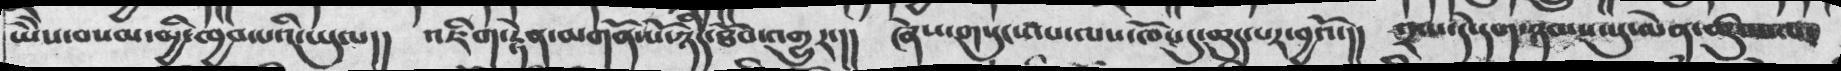ཡཻས་བསམ་མྱི་ཁྱབ་པའི་ཡུལ།། འཇིག་རྟེན་མགོན་པོ་ཉིད་ཐོབ་འགྱུར་།། ཞེས་གསུངས་པ་ལས་ཁོང་དུ་ཆུད་པར་བྱའོ་།། ༢་པ་དེ་དག་ཉམས་སུ་ལེན་ཚུལ་ལ་
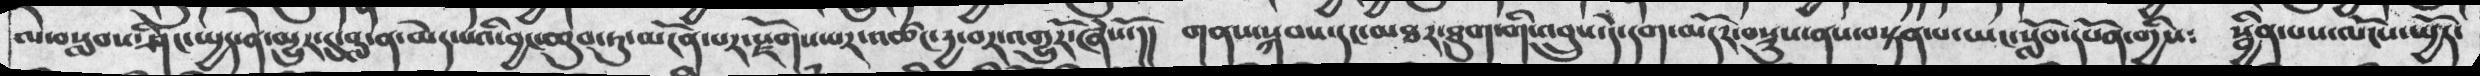ལ་བསླབས་ཤིང་སྤྱད་ན་མྱུར་དུ་བླ་ན་མེད་པའི་བྱང་ཆུབ་ཏུ་མངོན་པར་སྫོགས་པར་འཚང་དྱ་བར་འགྱུརོ་ཞེསོ་།།  གནས་སྐབས་དང་མཐར་ཐུག་གི་འབྲུས་དེ་དག་མདོར་བསྡུས་ནས་བསྟན་པ་ཡང་སློབ་དཔོན་གྱིས༴  སྦྱིན་པས་ལོངས་སྤྱོད་
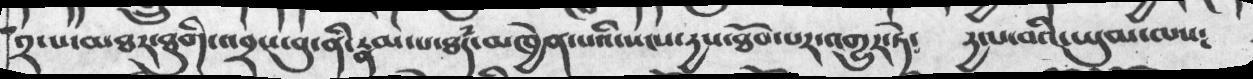༢་པ་མཐར་ཐུགི་འབྲས་བུ་ནི་རྣམ་པ་ཐཾད་མཁྱེན་པའི་སངས་དྱས་ཐོབ་པར་འགྱུར་ཏེ༴  དྱལ་བའི་ཡུམ་ལས༴
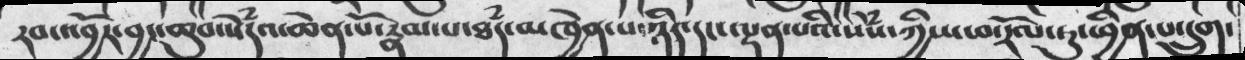རབ་འབྱོར་བྱང་ཆུབ་སེཾདའ་ཆེན་པོ་རྣམ་པ་ཐཾད་མཁྱེན་པ་ཉིད་དང་ལྡན་པའི་སེཾས་ཀྱིས་ཕ་རོལ་ཏུ་ཕྱིན་པ་དྲུག་
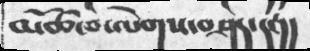མཚོ་བ་ལེགས་བཤད་དང།།
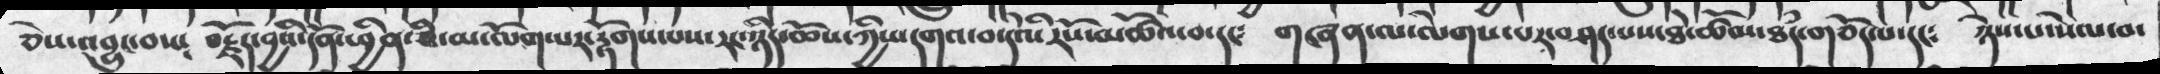ཅེས་འབྱུང་བས༴  བརྗོད་བྱའི་དོན་ཕྱིན་ཅི་མ་ལོགས་པར་རྟོགས་པས་རང་ཉིད་ཆོས་ཀྱིས་དགའ་བ་དིའི་རོས་མཚོའ་བ་དང༴  གཞན་ལ་ལེགས་པར་བཤད་པས་ཐེ་ཚོམ་ཐཾད་གཅོད་པ་དང༴    ཉེས་པ་སེལ་བ་
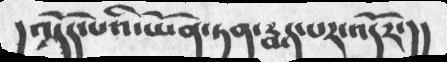།འདོད་པའི་ཡོན་ཏན་རྨད་པར་འདོར་།།
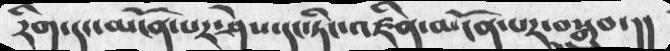རིག་དང་མངོན་པར་ཤེས་དང་ཏིང་འཛིན་མངོན་པར་བསྒྲུབ་།།
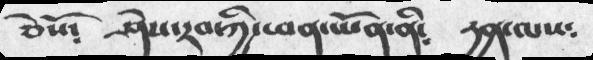ཅེསོ༴  ཤེས་རབ་ཀྱི་ཕན་ཡོན་ནི༴   དྱན་ལས༴
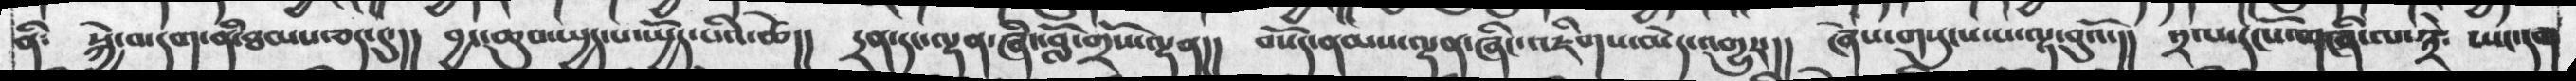ནི༴ སྐྱེ་བ་དག་ནི་ཐམས་ཅད་དུ་།། བྱང་ཆུབ་སྤྱད་པ་སྤྱོད་པའི་ཚེ།། དྲན་དང་ལྡན་ཞིང་བློ་གྲོས་ལྡན།། བསོད་ནམས་ལྡན་ཞིང་འཇིགས་མེད་འགྱུར་།། ཞེས་གསུངས་པ་ལྟ་བུའོ་།། ༢་པ་དངོས་གཞི་ལ་༣ེ༴ ཡང་དག
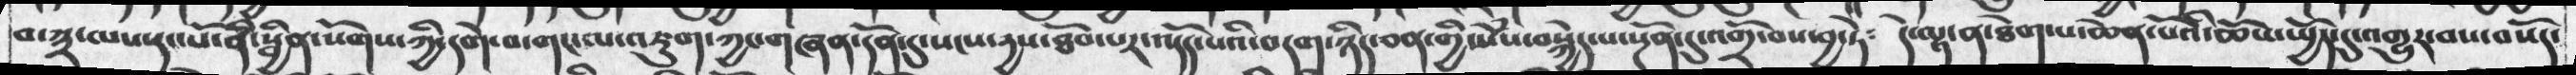བ་༣་ལས་དང་པོ་ནི་སྦྱིན་སོགས་ཀྱི་དགེ་བ་གང་ལ་འཇུག་ཀྱང་གཞན་དོན་དུ་སངས་དྱས་ཐོབ་པར་འདོད་པའི་བདག་ཉིད་ཅན་གྱི་སེཾས་བསྐྱེད་པ་སྔོན་དུ་འགྲོ་བས་བྱ་ཏེ༴ དེ་ལྟ་ན་ཐེག་པ་ཆེན་པོའི་ཆོས་སྤྱོད་དུ་འགྱུར་བས་བསོད་
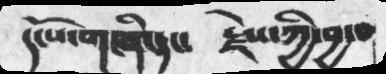དངོས་གཞི་དང༴ རྗེས་ཀྱི་བྱ་བ
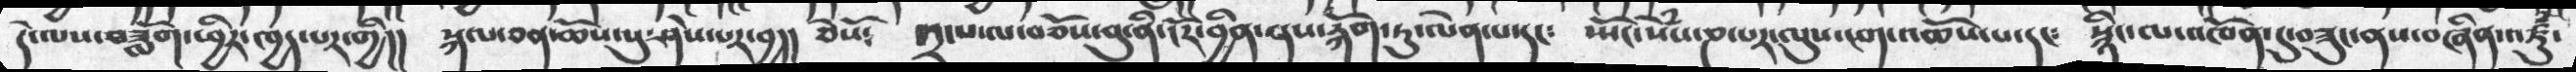དེ་ལས་བཟློག་ཕྱིར་ཁྱད་པར་གྱི།།  སྐལ་ཅན་ཆོས་སུ་ཤེས་པར་བྱ།།  ཅེསོ༴  ༢་པ་ལ་བཅོས་བུ་ནི་དོར་བྱིན་ནས་རྐོག་ཏུ་ལེན་པ་དང༴  སྤོང་སེཾས་ཎ་པར་ལུས་ངག་འཆོས་པ་དང༴ སྙིང་ལ་འཁོན་དུ་བཟུང་ནས་བཞིན་འཛུ་
